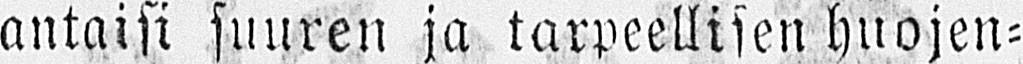antaisi suuren ja tarpeellisen huojen-
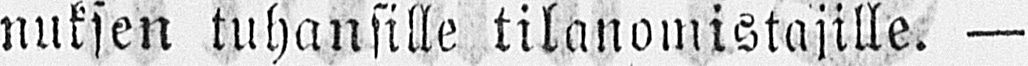nuksen tuhansille tilanomistajille. —
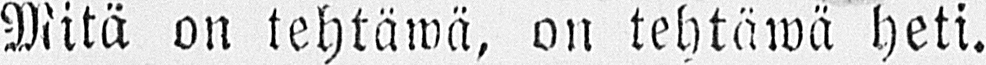Mitä on tehtäwä, on tehtäwä heti.
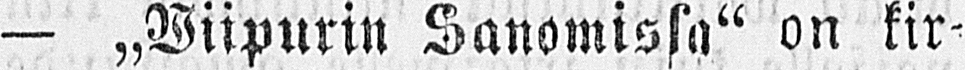— ˶Wiipurin Sanomissa" on kir-
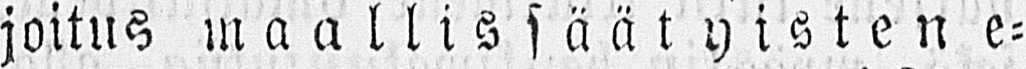joitus maallissäätyisten e-
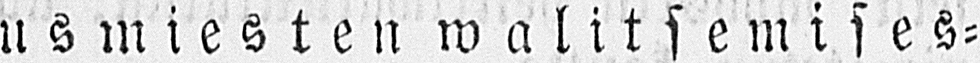dusmiesten walitsemises-
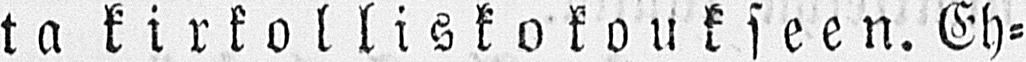ta kirkolliskokoukseen. Eh-
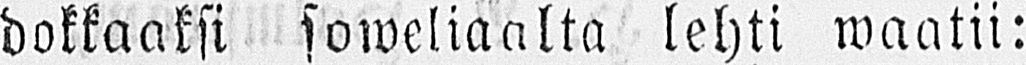dokkaaksi soweliaalta lehti waatii:
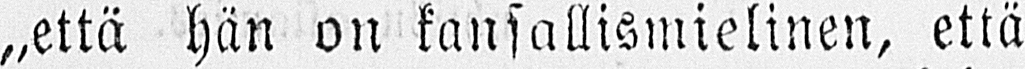„että hän on kansallismielinen, että
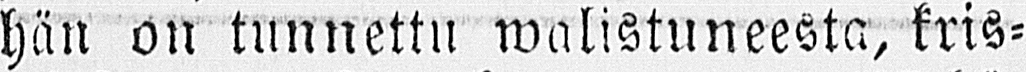hän on tunnettu walistuneesta, kris-
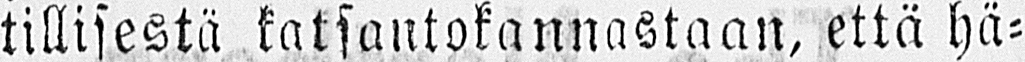tillisestä katsantokannastaan, että hä-
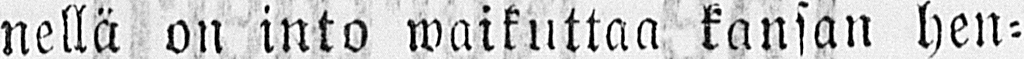nellä on into waikuttaa kansan hen-
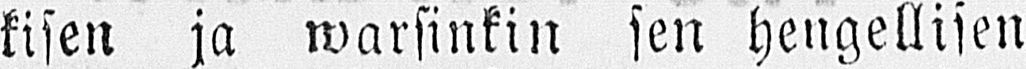kisen ja warsinkin sen hengellisen
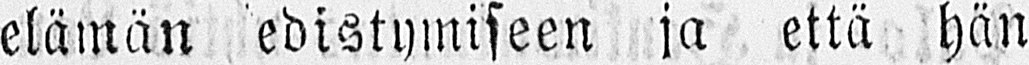elämän edistymiseen ja että hän
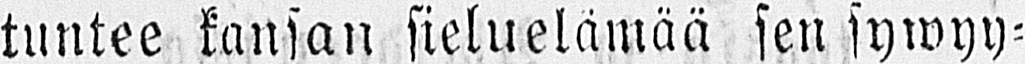tuntee kansan sieluelämää sen sywyy-
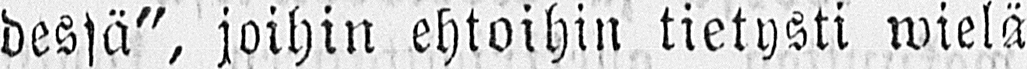dessä", joihin ehtoihin tietysti wielä
